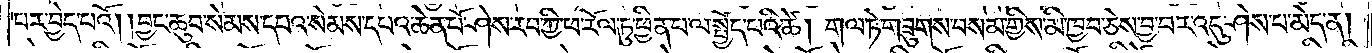པར་བྱེད་པའོ། །བྱང་ཆུབ་སེམས་དཔའ་སེམས་དཔའ་ཆེན་པོ་ཤེས་རབ་ཀྱི་ཕ་རོལ་ཏུ་ཕྱིན་པ་ལ་སྤྱོད་པའི་ཚེ། གལ་ཏེ་གཟུགས་བསམ་གྱིས་མི་ཁྱབ་ཅེས་བྱ་བར་འདུ་ཤེས་པ་མེད་ན།
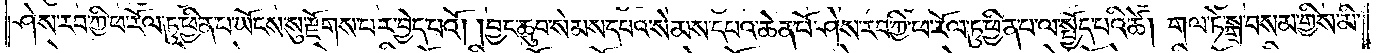ཤེས་རབ་ཀྱི་ཕ་རོལ་ཏུ་ཕྱིན་པ་ཡོངས་སུ་རྫོགས་པར་བྱེད་པའོ། །བྱང་ཆུབ་སེམས་དཔའ་སེམས་དཔའ་ཆེན་པོ་ཤེས་རབ་ཀྱི་ཕ་རོལ་ཏུ་ཕྱིན་པ་ལ་སྤྱོད་པའི་ཚེ། གལ་ཏེ་སྒྲ་བསམ་གྱིས་མི་
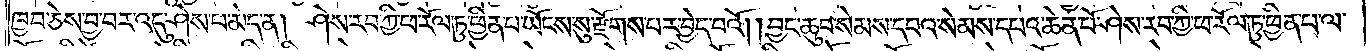ཁྱབ་ཅེས་བྱ་བར་འདུ་ཤེས་པ་མེད་ན། ཤེས་རབ་ཀྱི་ཕ་རོལ་ཏུ་ཕྱིན་པ་ཡོངས་སུ་རྫོགས་པར་བྱེད་པའོ། །བྱང་ཆུབ་སེམས་དཔའ་སེམས་དཔའ་ཆེན་པོ་ཤེས་རབ་ཀྱི་ཕ་རོལ་ཏུ་ཕྱིན་པ་ལ་
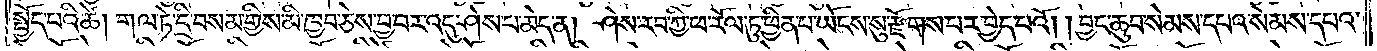སྤྱོད་པའི་ཚེ། གལ་ཏེ་དྲི་བསམ་གྱིས་མི་ཁྱབ་ཅེས་བྱ་བར་འདུ་ཤེས་པ་མེད་ན། ཤེས་རབ་ཀྱི་ཕ་རོལ་ཏུ་ཕྱིན་པ་ཡོངས་སུ་རྫོགས་པར་བྱེད་པའོ། །བྱང་ཆུབ་སེམས་དཔའ་སེམས་དཔའ་
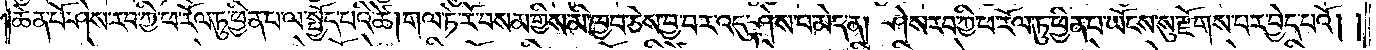ཆེན་པོ་ཤེས་རབ་ཀྱི་ཕ་རོལ་ཏུ་ཕྱིན་པ་ལ་སྤྱོད་པའི་ཚེ། གལ་ཏེ་རོ་བསམ་གྱིས་མི་ཁྱབ་ཅེས་བྱ་བར་འདུ་ཤེས་པ་མེད་ན། ཤེས་རབ་ཀྱི་ཕ་རོལ་ཏུ་ཕྱིན་པ་ཡོངས་སུ་རྫོགས་པར་བྱེད་པའོ། །
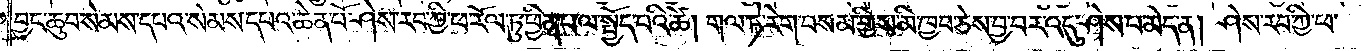བྱང་ཆུབ་སེམས་དཔའ་སེམས་དཔའ་ཆེན་པོ་ཤེས་རབ་ཀྱི་ཕ་རོལ་ཏུ་ཕྱིན་པ་ལ་སྤྱོད་པའི་ཚེ། གལ་ཏེ་རེག་བསམ་གྱིས་མི་ཁྱབ་ཅེས་བྱ་བར་འདུ་ཤེས་པ་མེད་ན། ཤེས་རབ་ཀྱི་ཕ་
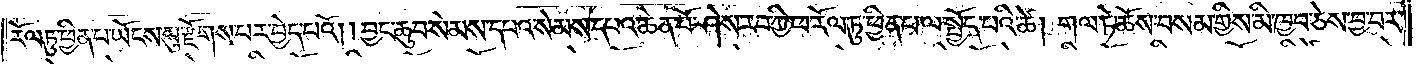རོལ་ཏུ་ཕྱིན་པ་ཡོངས་སུ་རྫོགས་པར་བྱེད་པའོ། །བྱང་ཆུབ་སེམས་དཔའ་སེམས་དཔའ་ཆེན་པོ་ཤེས་རབ་ཀྱི་ཕ་རོལ་ཏུ་ཕྱིན་པ་ལ་སྤྱོད་པའི་ཚེ། གལ་ཏེ་ཆོས་བསམ་གྱིས་མི་ཁྱབ་ཅེས་བྱ་བར་
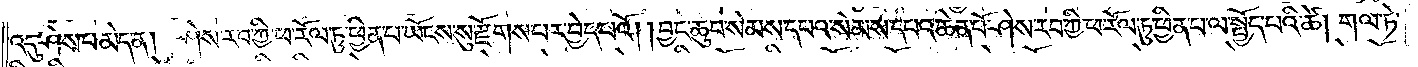འདུ་ཤེས་པ་མེད་ན། ཤེས་རབ་ཀྱི་ཕ་རོལ་ཏུ་ཕྱིན་པ་ཡོངས་སུ་རྫོགས་པར་བྱེད་པའོ། །བྱང་ཆུབ་སེམས་དཔའ་སེམས་དཔའ་ཆེན་པོ་ཤེས་རབ་ཀྱི་ཕ་རོལ་ཏུ་ཕྱིན་པ་ལ་སྤྱོད་པའི་ཚེ། གལ་ཏེ་
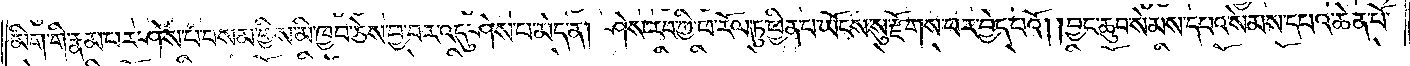མིག་གི་རྣམ་པར་ཤེས་པ་བསམ་གྱིས་མི་ཁྱབ་ཅེས་བྱ་བར་འདུ་ཤེས་པ་མེད་ན། ཤེས་རབ་ཀྱི་ཕ་རོལ་ཏུ་ཕྱིན་པ་ཡོངས་སུ་རྫོགས་པར་བྱེད་པའོ། །བྱང་ཆུབ་སེམས་དཔའ་སེམས་དཔའ་ཆེན་པོ་
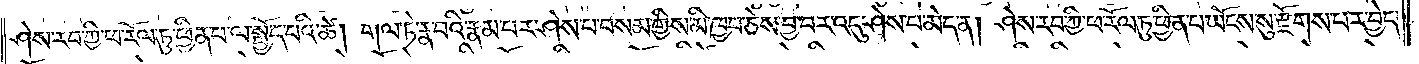ཤེས་རབ་ཀྱི་ཕ་རོལ་ཏུ་ཕྱིན་པ་ལ་སྤྱོད་པའི་ཚེ། གལ་ཏེ་རྣ་བའི་རྣམ་པར་ཤེས་པ་བསམ་གྱིས་མི་ཁྱབ་ཅེས་བྱ་བར་འདུ་ཤེས་པ་མེད་ན། ཤེས་རབ་ཀྱི་ཕ་རོལ་ཏུ་ཕྱིན་པ་ཡོངས་སུ་རྫོགས་པར་བྱེད་
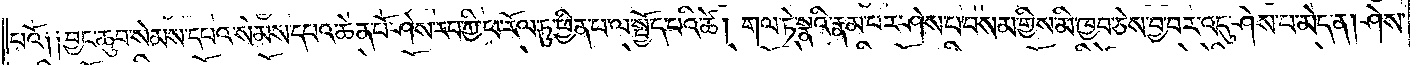པའོ༑ ༑བྱང་ཆུབ་སེམས་དཔའ་སེམས་དཔའ་ཆེན་པོ་ཤེས་རབ་ཀྱི་ཕ་རོལ་ཏུ་ཕྱིན་པ་ལ་སྤྱོད་པའི་ཚེ། གལ་ཏེ་སྣའི་རྣམ་པར་ཤེས་པ་བསམ་གྱིས་མི་ཁྱབ་ཅེས་བྱ་བར་འདུ་ཤེས་པ་མེད་ན། ཤེས་
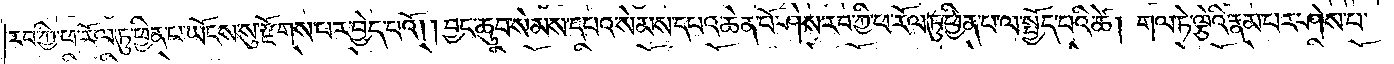རབ་ཀྱི་ཕ་རོལ་ཏུ་ཕྱིན་པ་ཡོངས་སུ་རྫོགས་པར་བྱེད་པའོ། །བྱང་ཆུབ་སེམས་དཔའ་སེམས་དཔའ་ཆེན་པོ་ཤེས་རབ་ཀྱི་ཕ་རོལ་ཏུ་ཕྱིན་པ་ལ་སྤྱོད་པའི་ཚེ། གལ་ཏེ་ལྕེའི་རྣམ་པར་ཤེས་པ་
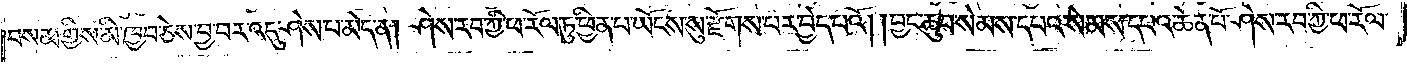བསམ་གྱིས་མི་ཁྱབ་ཅེས་བྱ་བར་འདུ་ཤེས་པ་མེད་ན། ཤེས་རབ་ཀྱི་ཕ་རོལ་ཏུ་ཕྱིན་པ་ཡོངས་སུ་རྫོགས་པར་བྱེད་པའོ། །བྱང་ཆུབ་སེམས་དཔའ་སེམས་དཔའ་ཆེན་པོ་ཤེས་རབ་ཀྱི་ཕ་རོལ་
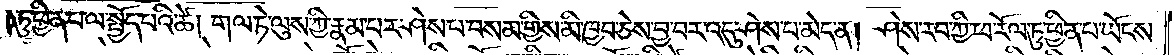ཏུ་ཕྱིན་པ་ལ་སྤྱོད་པའི་ཚེ། གལ་ཏེ་ལུས་ཀྱི་རྣམ་པར་ཤེས་པ་བསམ་གྱིས་མི་ཁྱབ་ཅེས་བྱ་བར་འདུ་ཤེས་པ་མེད་ན། ཤེས་རབ་ཀྱི་ཕ་རོལ་ཏུ་ཕྱིན་པ་ཡོངས་
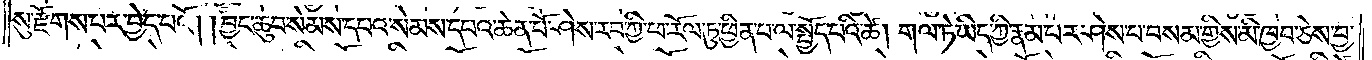སུ་རྫོགས་པར་བྱེད་པའོ། །བྱང་ཆུབ་སེམས་དཔའ་སེམས་དཔའ་ཆེན་པོ་ཤེས་རབ་ཀྱི་ཕ་རོལ་ཏུ་ཕྱིན་པ་ལ་སྤྱོད་པའི་ཚེ། གལ་ཏེ་ཡིད་ཀྱི་རྣམ་པར་ཤེས་པ་བསམ་གྱིས་མི་ཁྱབ་ཅེས་བྱ་
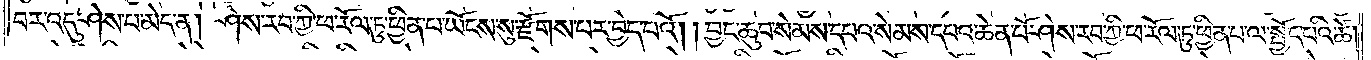བར་འདུ་ཤེས་པ་མེད་ན། ཤེས་རབ་ཀྱི་ཕ་རོལ་ཏུ་ཕྱིན་པ་ཡོངས་སུ་རྫོགས་པར་བྱེད་པའོ། །བྱང་ཆུབ་སེམས་དཔའ་སེམས་དཔའ་ཆེན་པོ་ཤེས་རབ་ཀྱི་ཕ་རོལ་ཏུ་ཕྱིན་པ་ལ་སྤྱོད་པའི་ཚེ།
